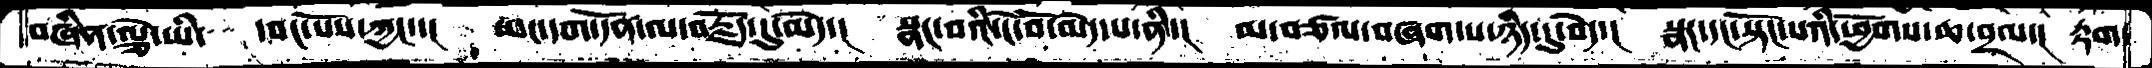བཞིན་ལྕེ་ཡི་  དབང་པོས་ཀྱང་་།  ཡང་དག་དོན་ལ་བརྗོད་དུ་མེད་།  སྣང་བའི་ངོ་བོ་མེད་པ་ནི་།  མ་བཙལ་བཞག་པ་ཉིད་དུ་བདེ་།  སྣང་དང་སྟོང་པའི་ཕྱོགས་ཆ་བྲལ་།  རྟག་
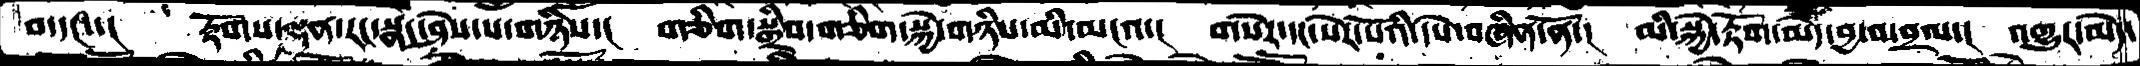བ་དང་་།  རྟོགས་ལྡན་རང་སྣང་ཤེས་པ་གཉིས་།  གཅིག་སྒྲིབ་གཅིག་སྐྱེ་གཉིས་མི་མངའ་།  གསེར་དང་སེར་པོའི་དཔེ་བཞིན་ནོ་།  མི་སྐྱེ་རྟོག་མེད་བྱ་བ་བྲལ་།  འགྱུར་མེད་
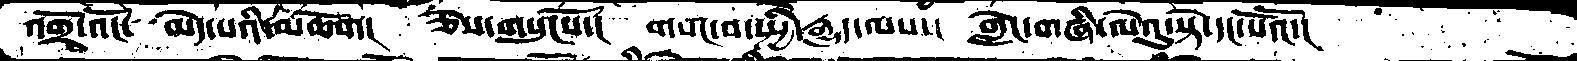འགྲོ་འོང་  མེད་པའི་མཆོག།  ཅེས་གསུངསོ་།  གསང་བ་སྤྱི་རྒྱུད་ལས་།  གླེང་གཞི་ལེའུ་སྟེ་དང་པོའོ་།
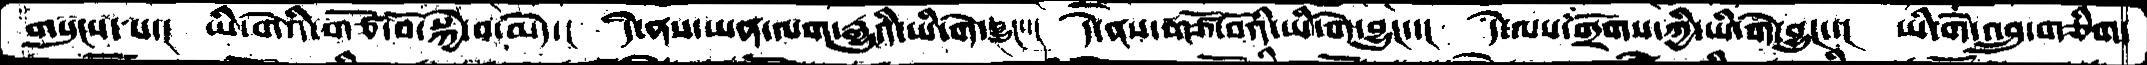གསུངས་པ་།  ཡི་གེའི་གཙོ་བོ་སྐྱེ་བ་མེད་།   དེ་ནས་ཡན་ལག་རྒྱུའི་ཡི་གེ་བྱུང་་།  དེ་ནས་གཅོ་བོའི་ཡི་གེ་བྱུང་་།  དེ་ལས་གྲོགས་ཀྱི་ཡི་གེ་བྱུང་་།  ཡི་གེ་འབྲུ་གཅིག་
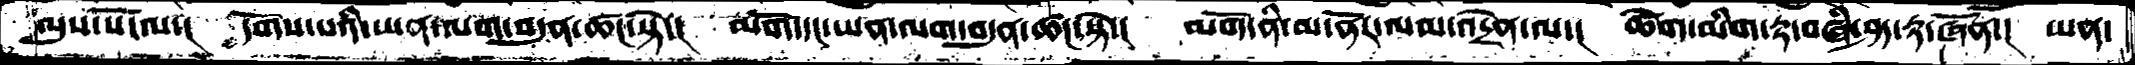ལུས་སོ་ལ་།  དགོས་པའི་ཡན་ལག་བདུན་ཚང་སྟེ་།  མགོ་དང་ཡན་ལག་བདུན་ཚང་སྟེ་།  མགོ་ནི་མ་ནོར་ལམ་འདྲེན་ལ་།  ཚེག་མིག་རྟ་བཞི་ཤར་རྟ་ཞོན་།  ཡན་
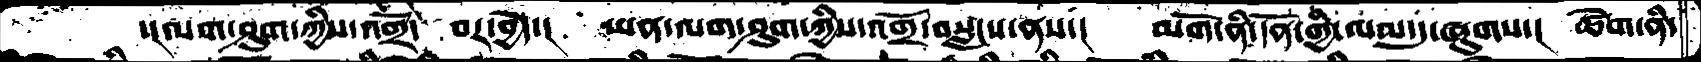་།ལག་ཤུག་ཀྱིས་འགྲོ་ བར་བྱེད་།  ཡན་ལག་ཤུག་ཀྱིས་འགྲོ་བསླངས་ནས་།  མགོ་ནི་དོན་གྱི་ལམ་དུ་ཞུགས་།  ཚེག་ནི་
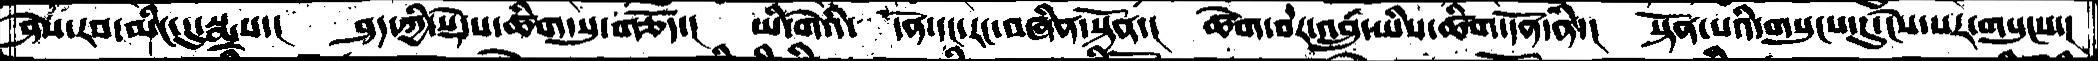ཤེས་རབ་མིང་དུ་སྨྲས་།  ཤད་ཀྱི་སྡེ་པ་ཚིག་སུ་གཅོད་།  ཡི་གེའི་ དོན་དང་རང་བཞིན་སྟོན་།  ཚེག་བར་འབྲུ་ཡིས་ཚིག་དོན་ནི་།   སྟོན་པའི་གསུངས་དུ་ངེས་པར་གསུངས་།
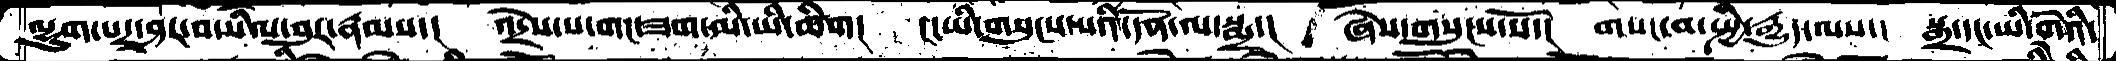ལྷུག་པར་ཤར་བ་སིལ་བུར་རྣམས་།  འདྲེས་པ་གང་ཟག་མི་ཡི་ཚིག།  ང་ཡི་གསུངས་པའི་དོན་ལ་སྨྲ་།  ཞེས་གསུངས་སོ་།  གསང་བ་སྤྱི་རྒྱུད་ལས་།  སྒྲ་དང་ཡི་གེའི་
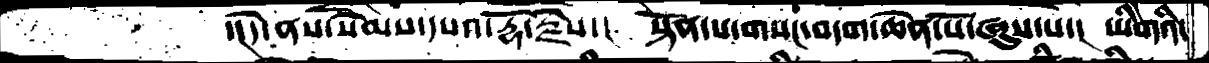་།དེ་ནས་སེམས་དཔའ་རྡོ་རྗེས་།   སྟོན་པ་གསང་བདག་ཆེན་པོ་ཞུས་པ་།  ཡིགེའི་
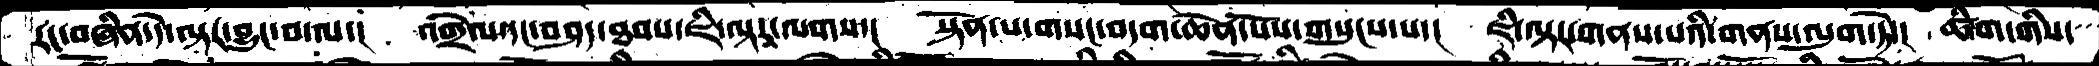རང་བཞིན་དེ་ལྟར་བྱུང་བ་ལ་།   འགྲེལ་དང་བཤད་ཐབས་ཇི་ལྟར་ལགས་།  སྟོན་པ་གསང་བདག་ཆེན་པོས་གསུངས་པ་།  ཇི་ལྟར་གནས་པའི་གནས་ལུག་ཏེ་།  ཚིག་གིས་
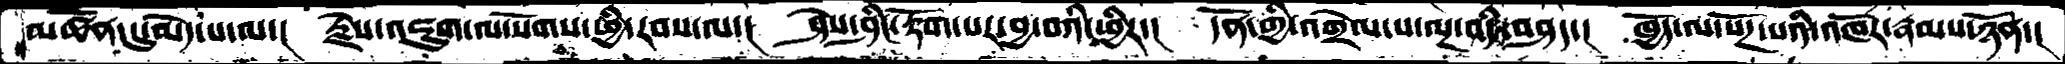མཚོན་དུ་མེད་པ་ལ་།  རྗེས་འཇུག་ལ་སོགས་ཕྱི་རབས་ལ་།  ཤེས་ཤིང་རྟོག་པར་བྱ་བའི་ཕྱིར་།  དོན་གྱི་འགྲེལ་པ་ལྔ་འདི་བཤད་།  ཁྱོད་ལ་སོཌ་པའི་འཁོར་རྣམས་ཉོན་།
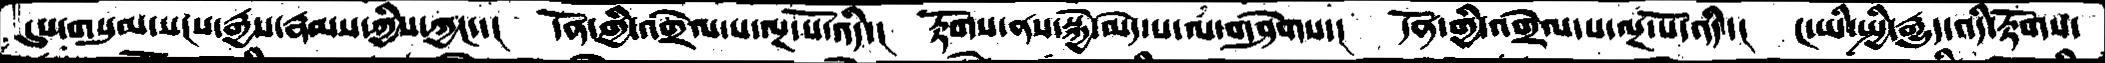དུས་གསུམ་སངས་རྒྱས་རྣམས་ཀྱིས་ཀྱང་་།  དོན་གྱི་འགྲེལ་པ་ལྔ་པོ་འདི་།  རྟོགས་ནས་སྐྱེ་མེད་པ་ལ་གཤེགས་།  དོན་གྱི་འགྲེལ་པ་ལྔ་པོ་འདི་།  ང་ཡི་སྤྱི་རྒྱུད་འདི་རྟོགས་
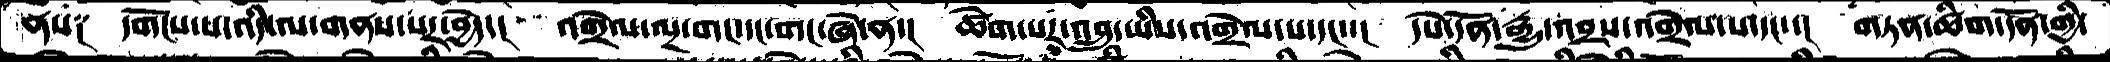ནས༑  དགོངས་པ་འདི་ལ་གནས་པར་བྱེད་།  འགྲེལ་ལྔ་གང་དང་གང་ཞེ་ན་།  ཚེག་པར་འབྲུ་ཡིས་འགྲེལ་པ་དང་་། དཔེ་དོན་རྒྱུ་འབྲས་འགྲེལ་པ་དང་་།  གཏན་ཚིག་དོན་གྱི་
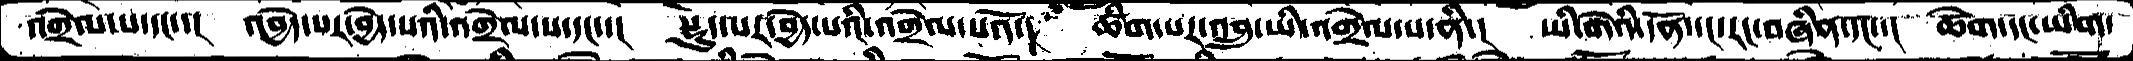འགྲེལ་པ་དང་་།  འབྱེད་པར་བྱེད་པའི་འགྲེལ་པ་དང་་།  སྡུད་པར་བྱེད་པའི་འགྲེལ་པའོ་།  ཚིག་པར་འབྲུ་ཡི་འགྲེལ་པ་ནི་།  ཡི་གེའི་དོན་དང་རང་བཞིན་དང་་།  ཚེག་དང་ཡིག་
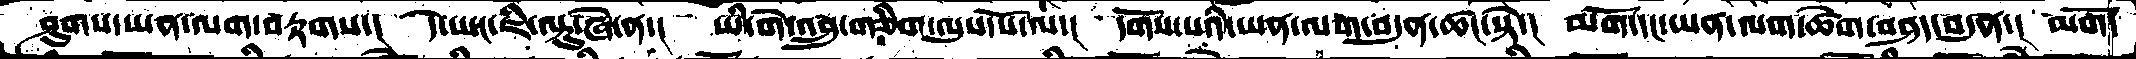ཤུགས་ཡན་ལག་བརྟགས་།  དེ་ཡང་ཇི་ལྟུ་ཞེ་ན་།  ཡི་གེ་འབྲུ་གཅིག་ལུས་པོ་ལ་།  དགོས་པའི་ཡན་ལག་བདུན་ཚང་སྟེ་།  མགོ་་དང་ཡན་ལག་ཚེག་བཤད་བདུན་།  མགོ་
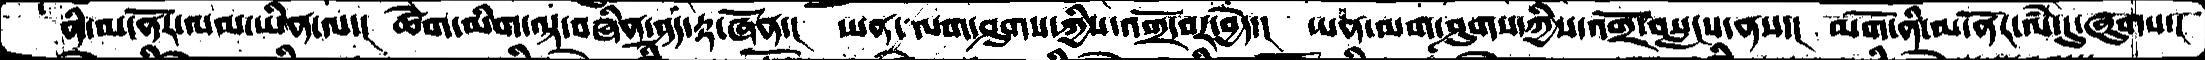ནི་མ་ནོར་ལམ་ཡིན་ལ་།  ཚེག་མིག་ལྟ་བཞིན་ཤད་རྟ་ཞོན་།  ཡན་ལག་ཤུགས་ཀྱིས་འགྲོ་བར་བྱེད་།  ཡན་ལག་ཤུགས་ཀྱིས་འགྲོ་བསླངས་ནས་། མགོ་ནི་མ་ནོར་ལཾ་དུ་ཞུགས་།
